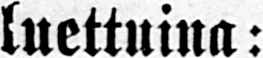luettuina:
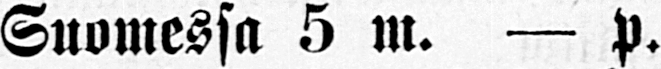Suomessa 5 m. — p.
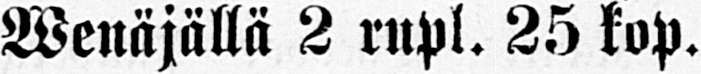Wenäjällä 2 rupl. 25 kop.
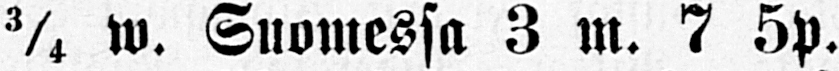¾ w. Suomessa 3 m. 7 5p.
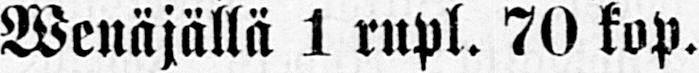Wenäjällä 1 rupl. 70 kop.
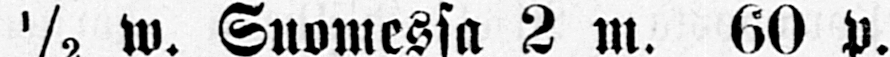½ w. Suomessa 2 m. 60 p.
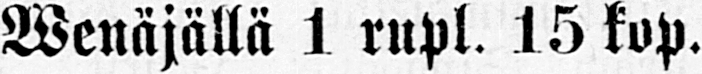Wenäjällä 1 rupl. 15 kop.
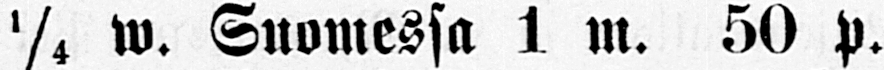¼ w. Suomessa 1 m. 50 p.
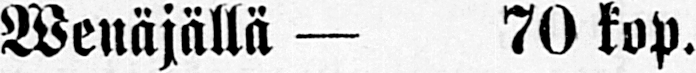Wenäjällä — 70 kop.
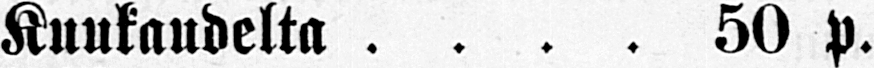Kuukaudelta. 50 p.
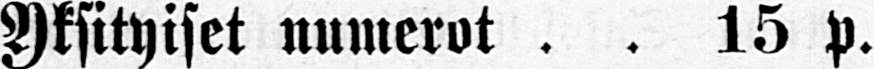Yksityiset numerot. 15 p.
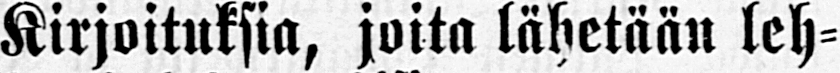Kirjoituksia, joita lähetään leh-
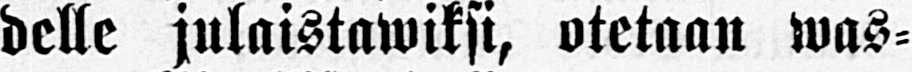delle julaistawiksi, otetaan was-
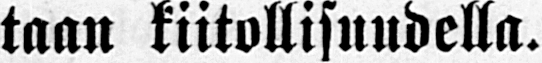taan kiitollisuudella.
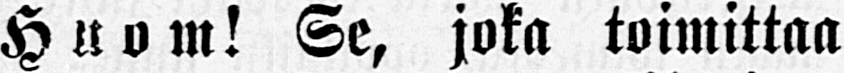Huom! Se, joka toimittaa
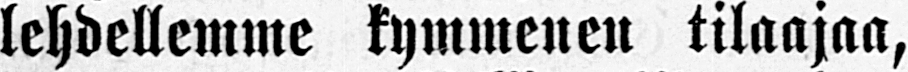lehdellemme kymmenen tilaajaa,
